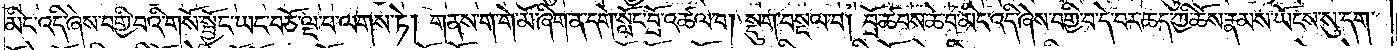མིང་འདི་ཞེས་བགྱི་བའི་གསོ་སྦྱོང་ཡང་བཅོ་ལྔ་པ་ལགས་ཏེ། གནས་ག་གེ་མོ་ཞིག་ན་དགེ་སློང་བྲོ་འཚལ་བ། སྡུག་བསྔལ་བ། བྲོ་ཚབས་ཆེ་བ་མིང་འདི་ཞེས་བགྱི་བ་དེ་བར་ཆད་ཀྱི་ཆོས་རྣམས་ཡོངས་སུ་དག་
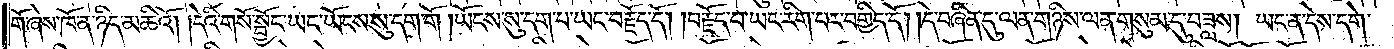གོ་ཞེས་ཁོ་ན་ཉིད་མཆིའོ། །དེའི་གསོ་སྦྱོང་ཡང་ཡོངས་སུ་དག་གོ །ཡོངས་སུ་དག་པ་ཡང་བརྗོད་དོ། །བརྗོད་པ་ཡང་རིག་པར་བགྱིད་དོ། །དེ་བཞིན་དུ་ལན་གཉིས་ལན་གསུམ་དུ་བཟླས། ཡང་ན་དེས་དགེ་
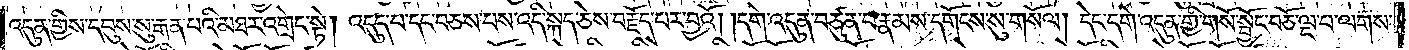འདུན་གྱིས་དབུས་སུ་རྒན་པའི་མཐར་འགྲེང་སྟེ། འདུད་པ་དང་བཅས་པས་འདི་སྐད་ཅེས་བརྗོད་པར་བྱའོ། །དགེ་འདུན་བཙུན་པ་རྣམས་དགོངས་སུ་གསོལ། དེང་དགེ་འདུན་གྱི་གསོ་སྦྱོང་བཅོ་ལྔ་པ་ལགས།
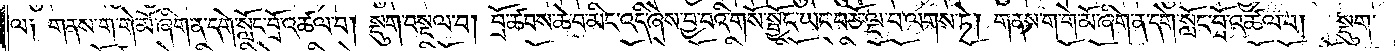ལ༑ གནས་ག་གེ་མོ་ཞིག་ན་དགེ་སློང་བྲོ་འཚལ་བ། སྡུག་བསྔལ་བ། བྲོ་ཚབས་ཆེ་བ་མིང་འདི་ཞེས་བྱ་བའི་གསོ་སྦྱོང་ཡང་བཅོ་ལྔ་པ་ལགས་ཏེ། གནས་ག་གེ་མོ་ཞིག་ན་དགེ་སློང་བྲོ་འཚལ་བ། སྡུག་
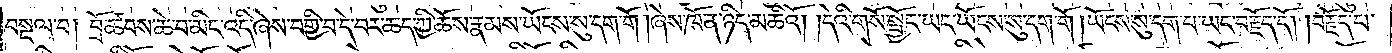བསྔལ་བ། བྲོ་ཚབས་ཆེ་བ་མིང་འདི་ཞེས་བགྱི་བ་དེ་བར་ཆད་ཀྱི་ཆོས་རྣམས་ཡོངས་སུ་དག་གོ །ཞེས་ཁོན་ཉིད་མཆིའོ། །དེའི་གསོ་སྦྱོང་ཡང་ཡོངས་སུ་དག་གོ །ཡོངས་སུ་དག་པ་ཡང་བརྗོད་དོ། །བརྗོད་པ་
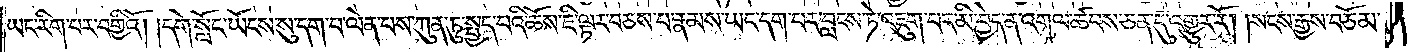ཡང་རིག་པར་བགྱིའོ། །དགེ་སློང་ཡོངས་སུ་དག་པ་ལེན་པས་ཀུན་ཏུ་སྤྱད་པའི་ཆོས་ཇི་ལྟར་བཅས་པ་རྣམས་ཡང་དག་དང་བླངས་ཏེ་འཇུག་པར་མི་བྱེད་ན་འགལ་ཚབས་ཅན་དུ་འགྱུར་རོ། །སངས་རྒྱས་བཅོམ་
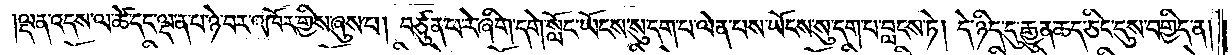ལྡན་འདས་ལ་ཚེ་དང་ལྡན་པ་ཉེ་བར་འཁོར་གྱིས་ཞུས་པ། བཙུན་པ་རེ་ཞིག་དགེ་སློང་ཡོངས་སུ་དག་པ་ལེན་པས་ཡོངས་སུ་དག་པ་བླངས་ཏེ། དེ་ཉིད་དུ་རྒྱུན་ཆད་ཅིང་དུས་བགྱིད་ན།
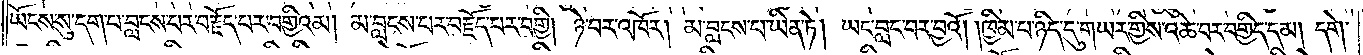ཡོངས་སུ་དག་པ་བླངས་པར་བརྗོད་པར་བགྱིའམ། མ་བླངས་པར་བརྗོད་པར་བགྱི། ཉེ་བར་འཁོར། མ་བླངས་པ་ཡིན་ཏེ། ཡང་བླང་བར་བྱའོ། །ཁྱིམ་པ་ཉིད་དུ་གཡར་གྱིས་འཆེ་བར་བགྱིད་དམ། དགེ་
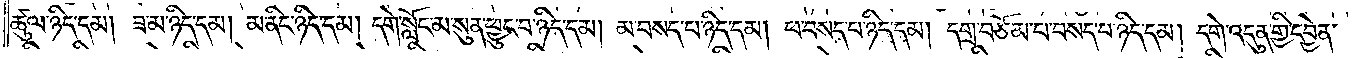ཚུལ་ཉིད་དམ། ཟ་མ་ཉིད་དམ། མ་ནིང་ཉིད་དམ། དགེ་སློང་མ་སུན་ཕྱུང་བ་ཉིད་དམ། མ་བསད་བ་ཉིད་དམ། ཕ་བསད་པ་ཉིད་དམ། དགྲ་བཅོམ་པ་བསད་བ་ཉིད་དམ། དགེ་འདུན་གྱི་དབྱེན་
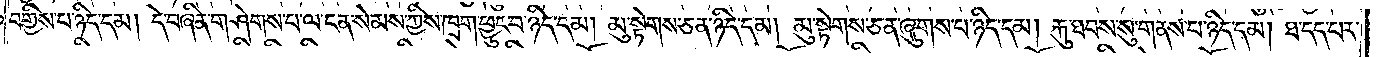བགྱིས་པ་ཉིད་དམ། དེ་བཞིན་གཤེགས་པ་ལ་ངན་སེམས་ཀྱིས་ཁྲག་ཕྱུང་བ་ཉིད་དམ། མུ་སྟེགས་ཅན་ཉིད་དམ། མུ་སྟེགས་ཅན་ཞུགས་པ་ཉིད་དམ། རྐུ་ཐབས་སུ་གནས་པ་ཉིད་དམ། ཐ་དད་པར་
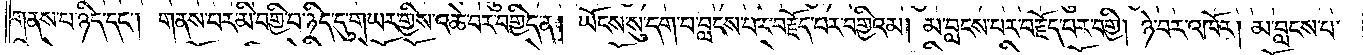གནས་པ་ཉིད་དང༌། གནས་བར་མི་བགྱི་བ་ཉིད་དུ་གཡར་གྱིས་འཆེ་བར་བགྱིད་ན། ཡོངས་སུ་དག་བ་བླངས་པར་བརྗོད་པར་བགྱིའམ། མ་བླངས་བར་བརྗོད་བར་བགྱི། ཉེ་བར་འཁོར། མ་བླངས་པ་
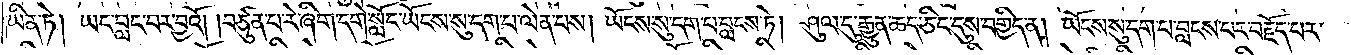ཡིན་ཏེ། ཡང་བླང་བར་བྱའོ། །བཙུན་པ་རེ་ཞིག་དགེ་སློང་ཡོངས་སུ་དག་པ་ལེན་པས། ཡོངས་སུ་དག་པ་བླངས་ཏེ། ཤུལ་དུ་རྒྱུན་ཆད་ཅིང་དུས་བགྱིད་ན། ཡོངས་སུ་དག་པ་བླངས་པར་བརྗོད་པར་
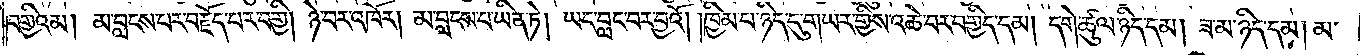བགྱིའམ། མ་བླངས་པར་བརྗོད་པར་བགྱི། ཉེ་བར་འཁོར། མ་བླངས་པ་ཡིན་ཏེ། ཡང་བླང་བར་བྱའོ། །ཁྱིམ་པ་ཉིད་དུ་གཡར་གྱིས་འཆེ་བར་བགྱིད་དམ། དགེ་ཚུལ་ཉིད་དམ། ཟ་མ་ཉིད་དམ། མ་
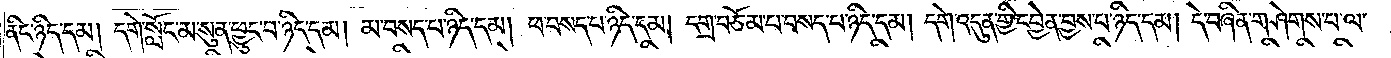ནིང་ཉིད་དམ། དགེ་སློང་མ་སུན་ཕྱུང་བ་ཉིད་དམ། མ་བསད་པ་ཉིད་དམ། ཕ་བསད་པ་ཉིད་དམ། དགྲ་བཅོམ་པ་བསད་པ་ཉིད་དམ། དགེ་འདུན་གྱི་དབྱེན་བྱས་པ་ཉིད་དམ། དེ་བཞིན་གཤེགས་པ་ལ་
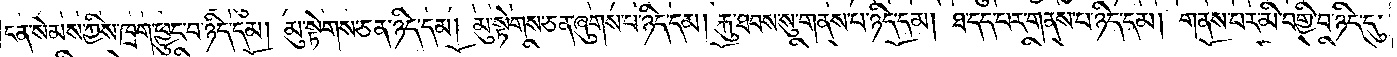ངན་སེམས་ཀྱིས་ཁྲག་ཕྱུང་བ་ཉིད་དམ། མུ་སྟེགས་ཅན་ཉིད་དམ། མུ་སྟེགས་ཅན་ཞུགས་པ་ཉིད་དམ། རྐུ་ཐབས་སུ་གནས་པ་ཉིད་དམ། ཐ་དད་པར་གནས་པ་ཉིད་དམ། གནས་པར་མི་བགྱི་བ་ཉིད་དུ་
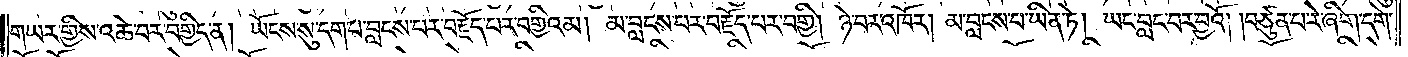གཡར་གྱིས་འཆེ་བར་བགྱིད་ན། ཡོངས་སུ་དག་པ་བླངས་པར་བརྗོད་པར་བགྱིའམ། མ་བླངས་པར་བརྗོད་པར་བགྱི། ཉེ་བར་འཁོར། མ་བླངས་པ་ཡིན་ཏེ། ཡང་བླང་བར་བྱའོ། །བཙུན་པ་རེ་ཞིག་དགེ་
